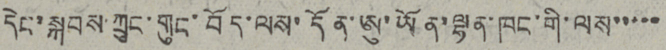དེང་སྐབས་ཀྲུང་གུང་བོད་ལས་དོན་ཨུ་ཡོན་ལྷན་ཁང་གི་ལས་་་་་་
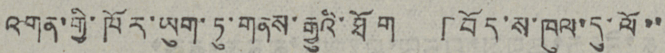འགན་གྱི་ཁོར་ཡུག་ཏུ་གནས་རྒྱུའི་ཐོག  「བོད་ས་ཁུལ་དུ་ལོ་་་
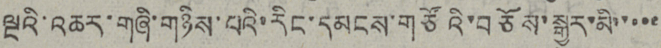ལྔའི་འཆར་གཞི་གཉིས་པའི་རིང་དམངས་གཙོའི་བཅོས་སྒྱུར་མི་་་་་་
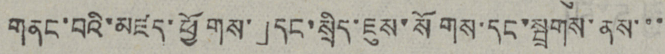གནང་བའི་མཛད་ཕྱོགས་ 」དང་སྲིད་ཇུས་སོགས་དང་སྦྲགས་ནས་་་་
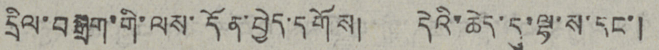དྲིལ་བསྒྲག་གི་ལས་དོན་བྱེད་དགོས། དེའི་ཆེད་དུ་ལྷ་ས་དང་།
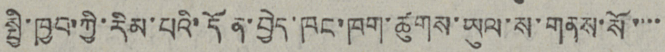སྤྱི་ཁྱབ་ཀྱི་རིམ་པའི་དོན་བྱེད་ཁང་ཁག་ཚུགས་ཡུལ་ས་གནས་སོ་་་་་
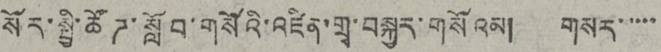སོར་སྤྱི་ཚོཊ་སློབ་གསོའི་འཛིན་གྲྭ་བསྐྱར་གསོའམ། གསར་་་་་
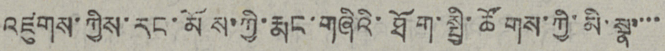འཛུགས་ཀྱིས་རང་མོས་ཀྱི་རྨང་གཞིའི་ཐོག་སྤྱི་ཚོགས་ཀྱི་མི་སྣ་་་་
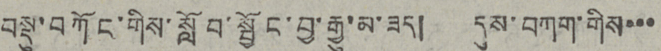བསྡུ་བཀོང་གིས་སློབ་སྦྱོང་བྱ་རྒྱུ་མ་ཟད། དུས་བཀག་གིས་་་་
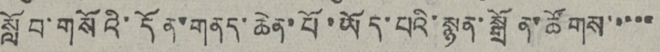སློབ་གསོའི་དོན་གནད་ཆེན་པོ་ཡོད་པའི་སྙན་སྒྲོན་ཚོགས་་་་་
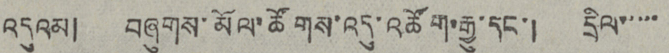འདུའམ། བཞུགས་མོལ་ཚོགས་འདུ་འཚོག་རྒྱུ་དང་། དྲིལ་་་་་
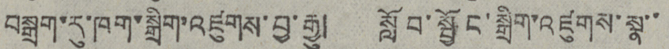བསྒྲག་རུ་ཁག་སྒྲིག་འཛུགས་བྱ་རྒྱུ། སློབ་སྦྱོང་སྒྲིག་འཛུགས་སྣ་་
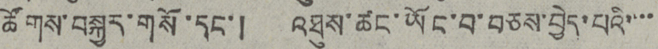ཚོགས་བསྐྱར་གསོ་དང་། འཐུས་ཚང་ཡོང་བ་བཅས་བྱེད་པའི་་་་
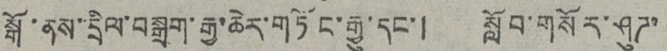སྒོ་ནས་དྲིལ་བསྒྲག་རྒྱ་ཆེར་གཏོང་རྒྱུ་དང་། སློབ་གསོར་ཤུཊ་་
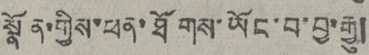སྣོན་གྱིས་ཕན་ཐོགས་ཡོང་བ་བྱ་རྒྱུ།
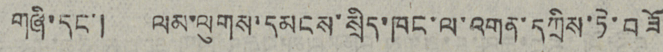གཞི་དང་།  ལམ་ལུགས་དམངས་སྲིད་ཁང་ལ་འགན་དཀྲིས་ཏེ་བཟོ
